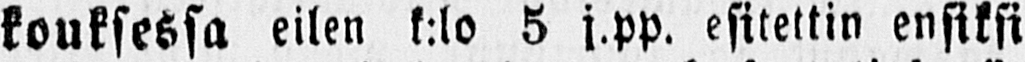kouksessa eilen k:lo 5 j.pp. esitettin ensiksi
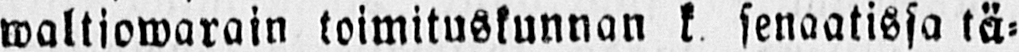waltiowarain toimituskunnan k. senaatissa tä-
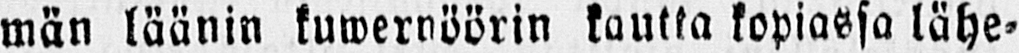män läänin kuwernöörin kautta kopiassa lähe-
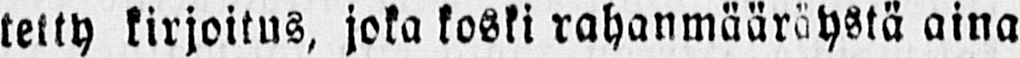tetty kirjoitus, joka koski rahanmääräystä aina
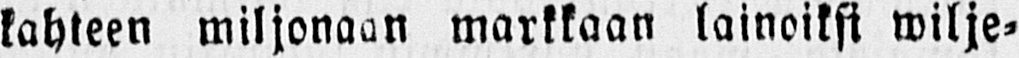kahteen miljonaan markkaan lainoiksi wilje-
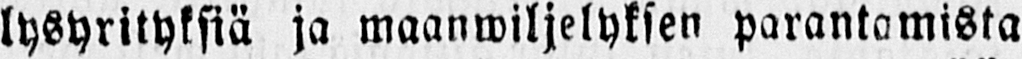lysyrityksiä ja maanwiljelyksen parantamista
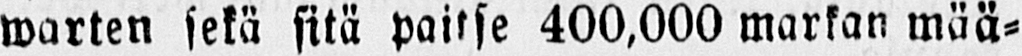warten sekä sitä paitse 400,000 markan mää-
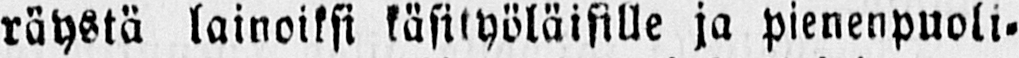räystä lainoiksi käsityöläisille ja pienenpuoli-
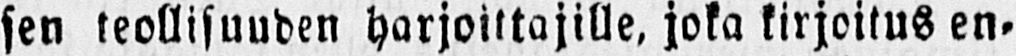sen teollisuuden harjoittajille, joka kirjoitus en-
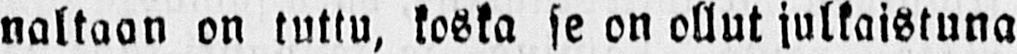naltaan on tuttu, koska se on ollut julkaistuna
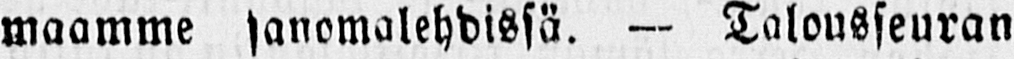maamme sanomalehdissä. — Talousseuran
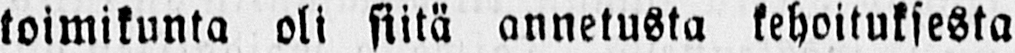toimikunta oli siitä annetusta kehoituksesta
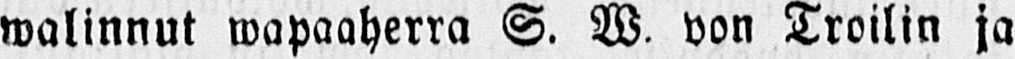walinnut wapaaherra S. W. von Troilin ja
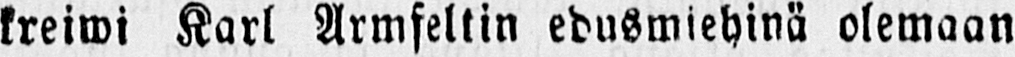kreiwi Karl Armfeltin edusmiehinä olemaan
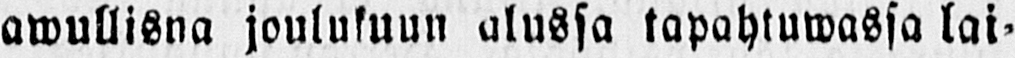awullisna joulukuun alussa tapahtuwassa lai-
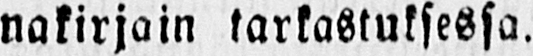nakirjain tarkastuksessa.
